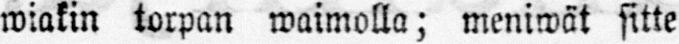wiakin torpan waimolla; meniwät sitte
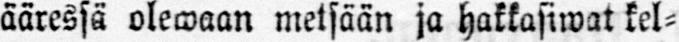ääressä olewaan metsään ja hakkasiwat kel-
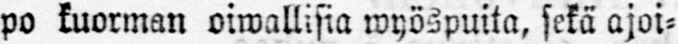po kuorman oiwallisia wyöspuita, sekä ajoi-
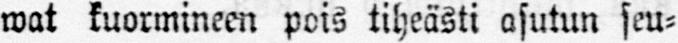wat kuormineen pois tiheästi asutun seu-
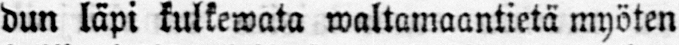dun läpi kulkewata waltamaantietä myöten
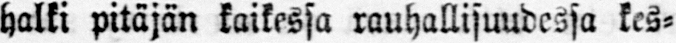halki pitäjän kaikessa rauhallisuudessa kes-
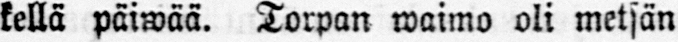kellä päiwää. Torpan waimo oli metsän
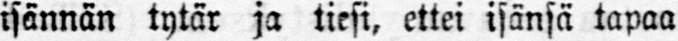isännän tytär ja tiesi, ettei isänsä tapaa
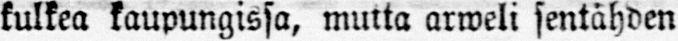kulkea kaupungissa, muita arweli sentähden
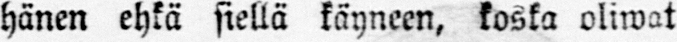hänen ehkä siellä käyneen, koska oliwat
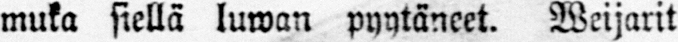muka siellä luwan pyytäneet. Weijarit
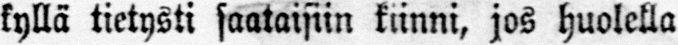kyllä tietysti saataisiin kiinni, jos huolella
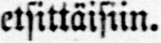etsittäisiin.
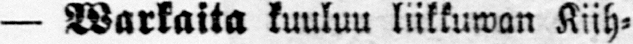— Warkaita kuuluu liikkuwan Kiih-
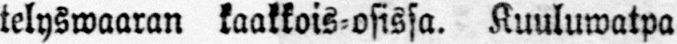telyswaaran kaakkois-osissa. Kuuluwatpa
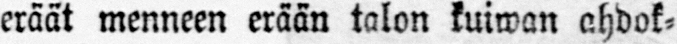eräät menneen erään talon kuiwan ahdok-
